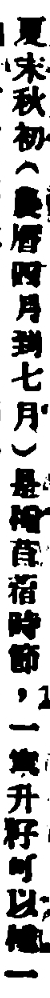夏末秋初（農曆四月到七月）是種苜蓿時節，一車升籽可以種一
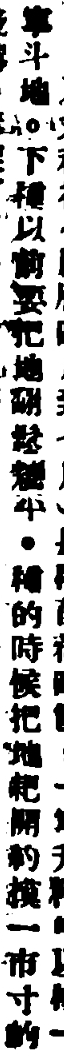車斗地。下種以前要把地翻鬆耱平。種的時候把地耙開約摸一市寸的
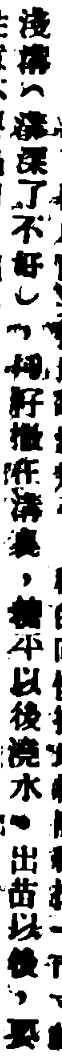淺溝（溝深了不好），將籽撒在溝裏，耱平以後澆水。出苗以後，要
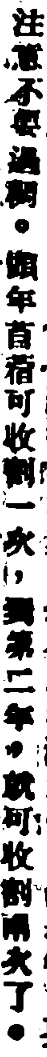注意不要過稠。頭年苜蓿可收割一次，到第二年，就可收割兩次了。
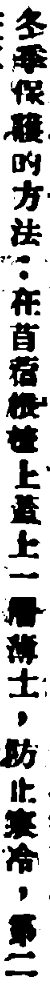冬季保護的方法：在苜蓿根楂上蓋上一層薄土，防止寒冷，第二
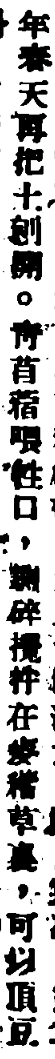年春天再把土刨開。靑苜蓿喂牲口，鍘碎攪拌在麥稭草裏，可以頂豆
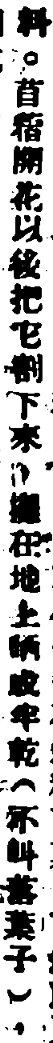料。苜蓿開花以後把它割下來，攤在地上晒成半乾（不叫落葉子），
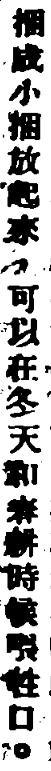捆成小捆放起來，可以在冬天和春耕時候喂牲口。
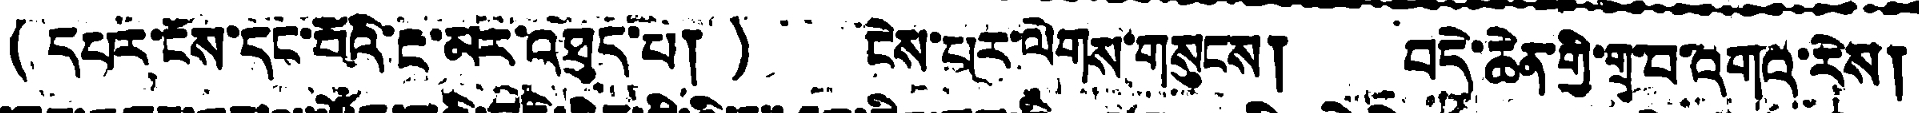( དཔར་ངོས་དང་པོའི་རྔ་མར་འཐུད་པ། ) ངེས་པར་ལེགས་གསུངས། བདེ་ཆེན་གྱི་གྲྭ་པ་འགའ་རེས།
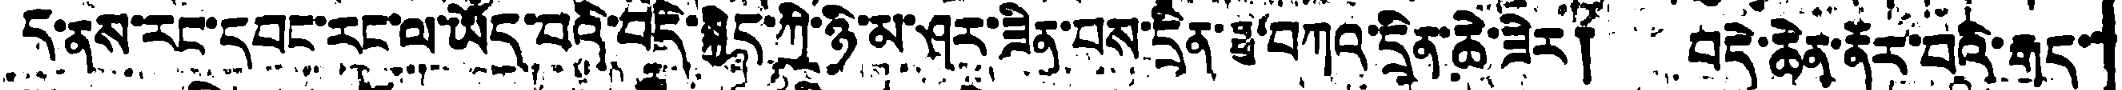ད་ནས་རང་དབང་རང་ལ་ཡོད་པའི་བདེ་སྐྱིད་ཀྱི་ཉི་མ་ཤར་ཟིན་པས་དྲིན་ཧྥུ་བཀའ་དྲིན་ཆེ་ཟེར། བདེ་ཆེན་ནོར་བའི་རྒད་་
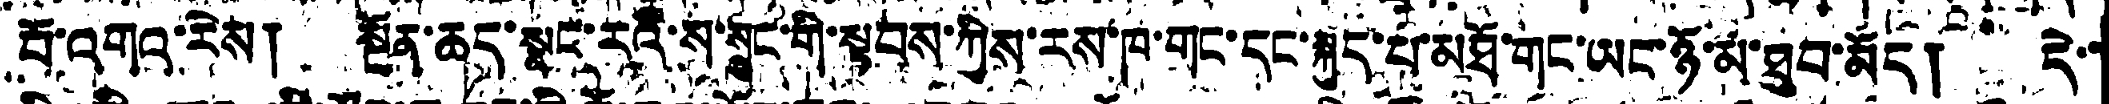པོ་འགའ་རེས། སྔོན་ཆད་སྣང་རའི་ས་སྲུང་གི་སྟབས་ཀྱིས་རས་ཁ་གང་དང་སྐུད་པ་མཐོ་གང་ཡང་ཉོ་མ་ཐུབ་མོད། དེ་་
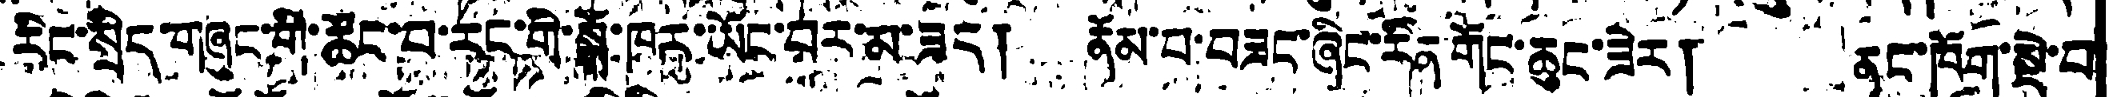རིང་སྲིད་གཞུང་གི་ཚོང་བ་རང་གི་སྒོ་ཁར་ཡོང་བར་མ་ཟད། རྣོམ་བ་བཟང་ཞིང་རིན་གོང་ཆུང་ཟེར། ནང་ཁོག་སྡེ་བ
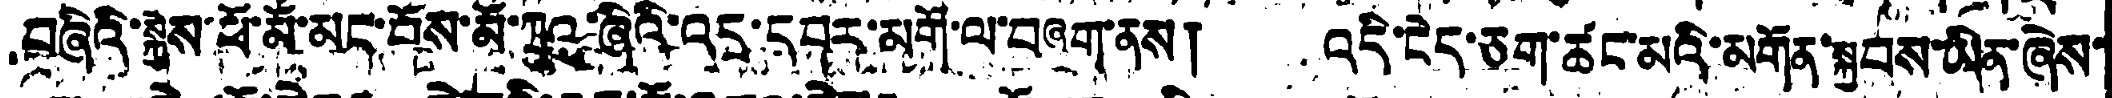བཞིའི་སྐྱེས་ཕོ་མོ་མང་པོས་མོ་ཀྲུའུ་ཞིའི་འདྲ་དཔར་མགོ་ལ་བཞག་ནས། འདི་ངེད་ཅག་ཚང་མའི་མགོན་སྐྱབས་ཡིན་ཞེས་
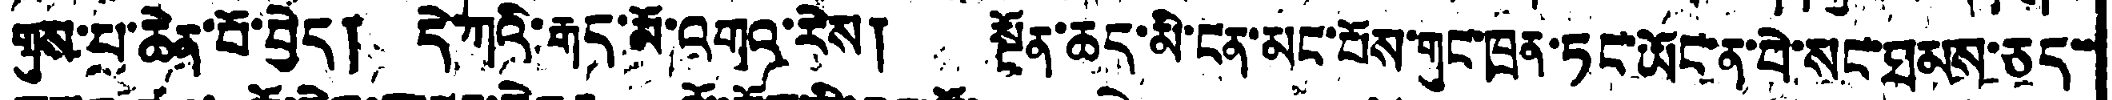གུས་པ་ཆེན་པོ་བྱེད། དེ་ཀའི་རྒད་མོ་འགའ་རེས། སྔོན་ཆད་མི་ངན་མང་པོས་གུང་ཁྲན་ཏང་ཡོང་ན་བེ་སང་ཐམས་ཅད་་
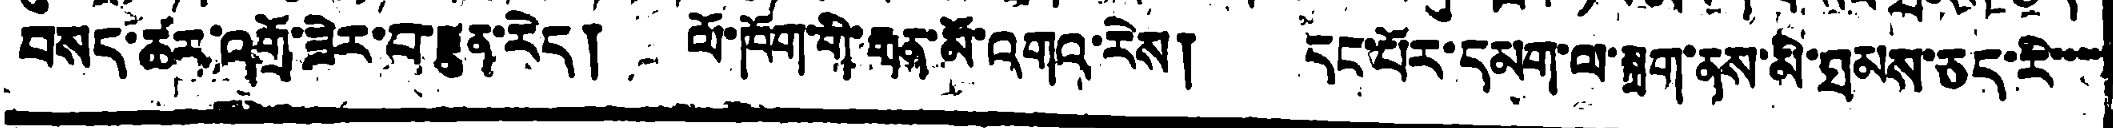བསད་ཚར་འགྲོ་ཟེར་པ་རྫུན་རེད། ལོ་ཁོག་གི་རྒན་མོ་འགའ་རེས། དང་པོར་དམག་ལ་སྐྲག་ནས་མི་ཐམས་ཅད་རི་་་་་་
